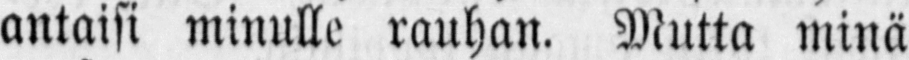antaisi minulle rauhan. Mutta minä
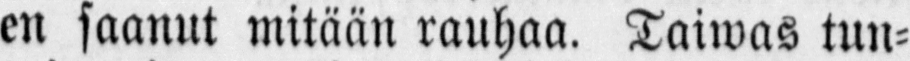en saanut mitään rauhaa. Taiwas tun-
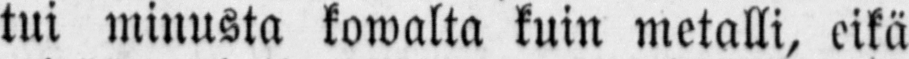tui minusta kowalta kuin metalli, eikä
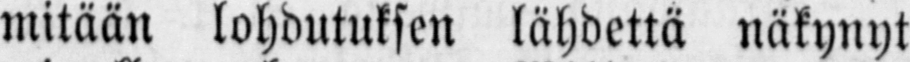mitään lohdutuksen lähdettä näkynyt
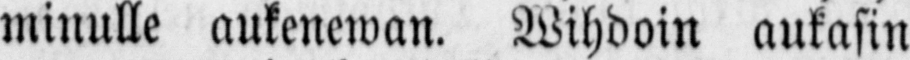minulle aukeneman. Wihdoin aukasin
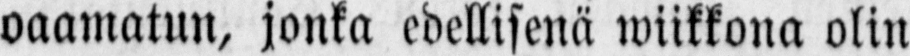oaamatun, jonka edellisenä wiikkona olin
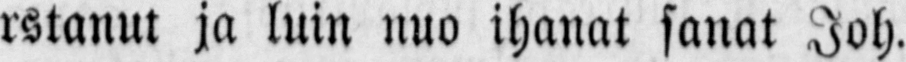rstanul ja luin nuo ihanat sanat Joh.
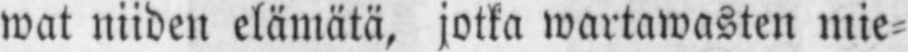wat niiden elämätä, jotka wartawasten mie-
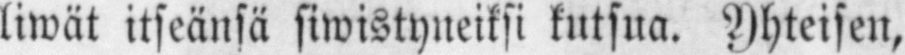liwät itseänsä siwistyneiksi kutsua. Yhteisen,
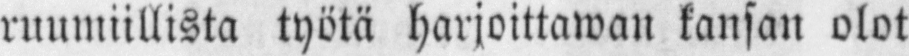ruumiillista työtä harjoittawan kansan olot
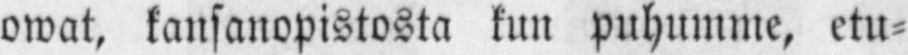owat, kansanopistosta kun puhumme, etu-
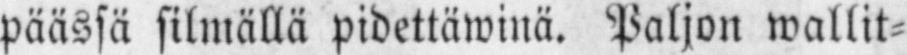päässä silmällä pidettäwinä. Paljon wallit-
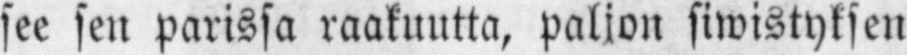see sen parissa raakuutta, paljon siwistyksen
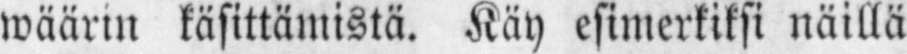wäärin käsittämistä. Käy esimerkiksi näillä
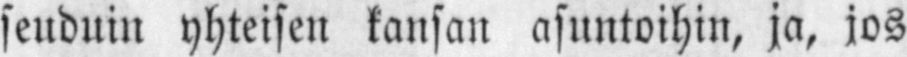seuduin yhteisen kansan asuntoihin, ja, jos
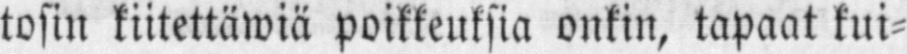tosin kiitettäwiä poikkeuksia onkin, tapaat kui-
